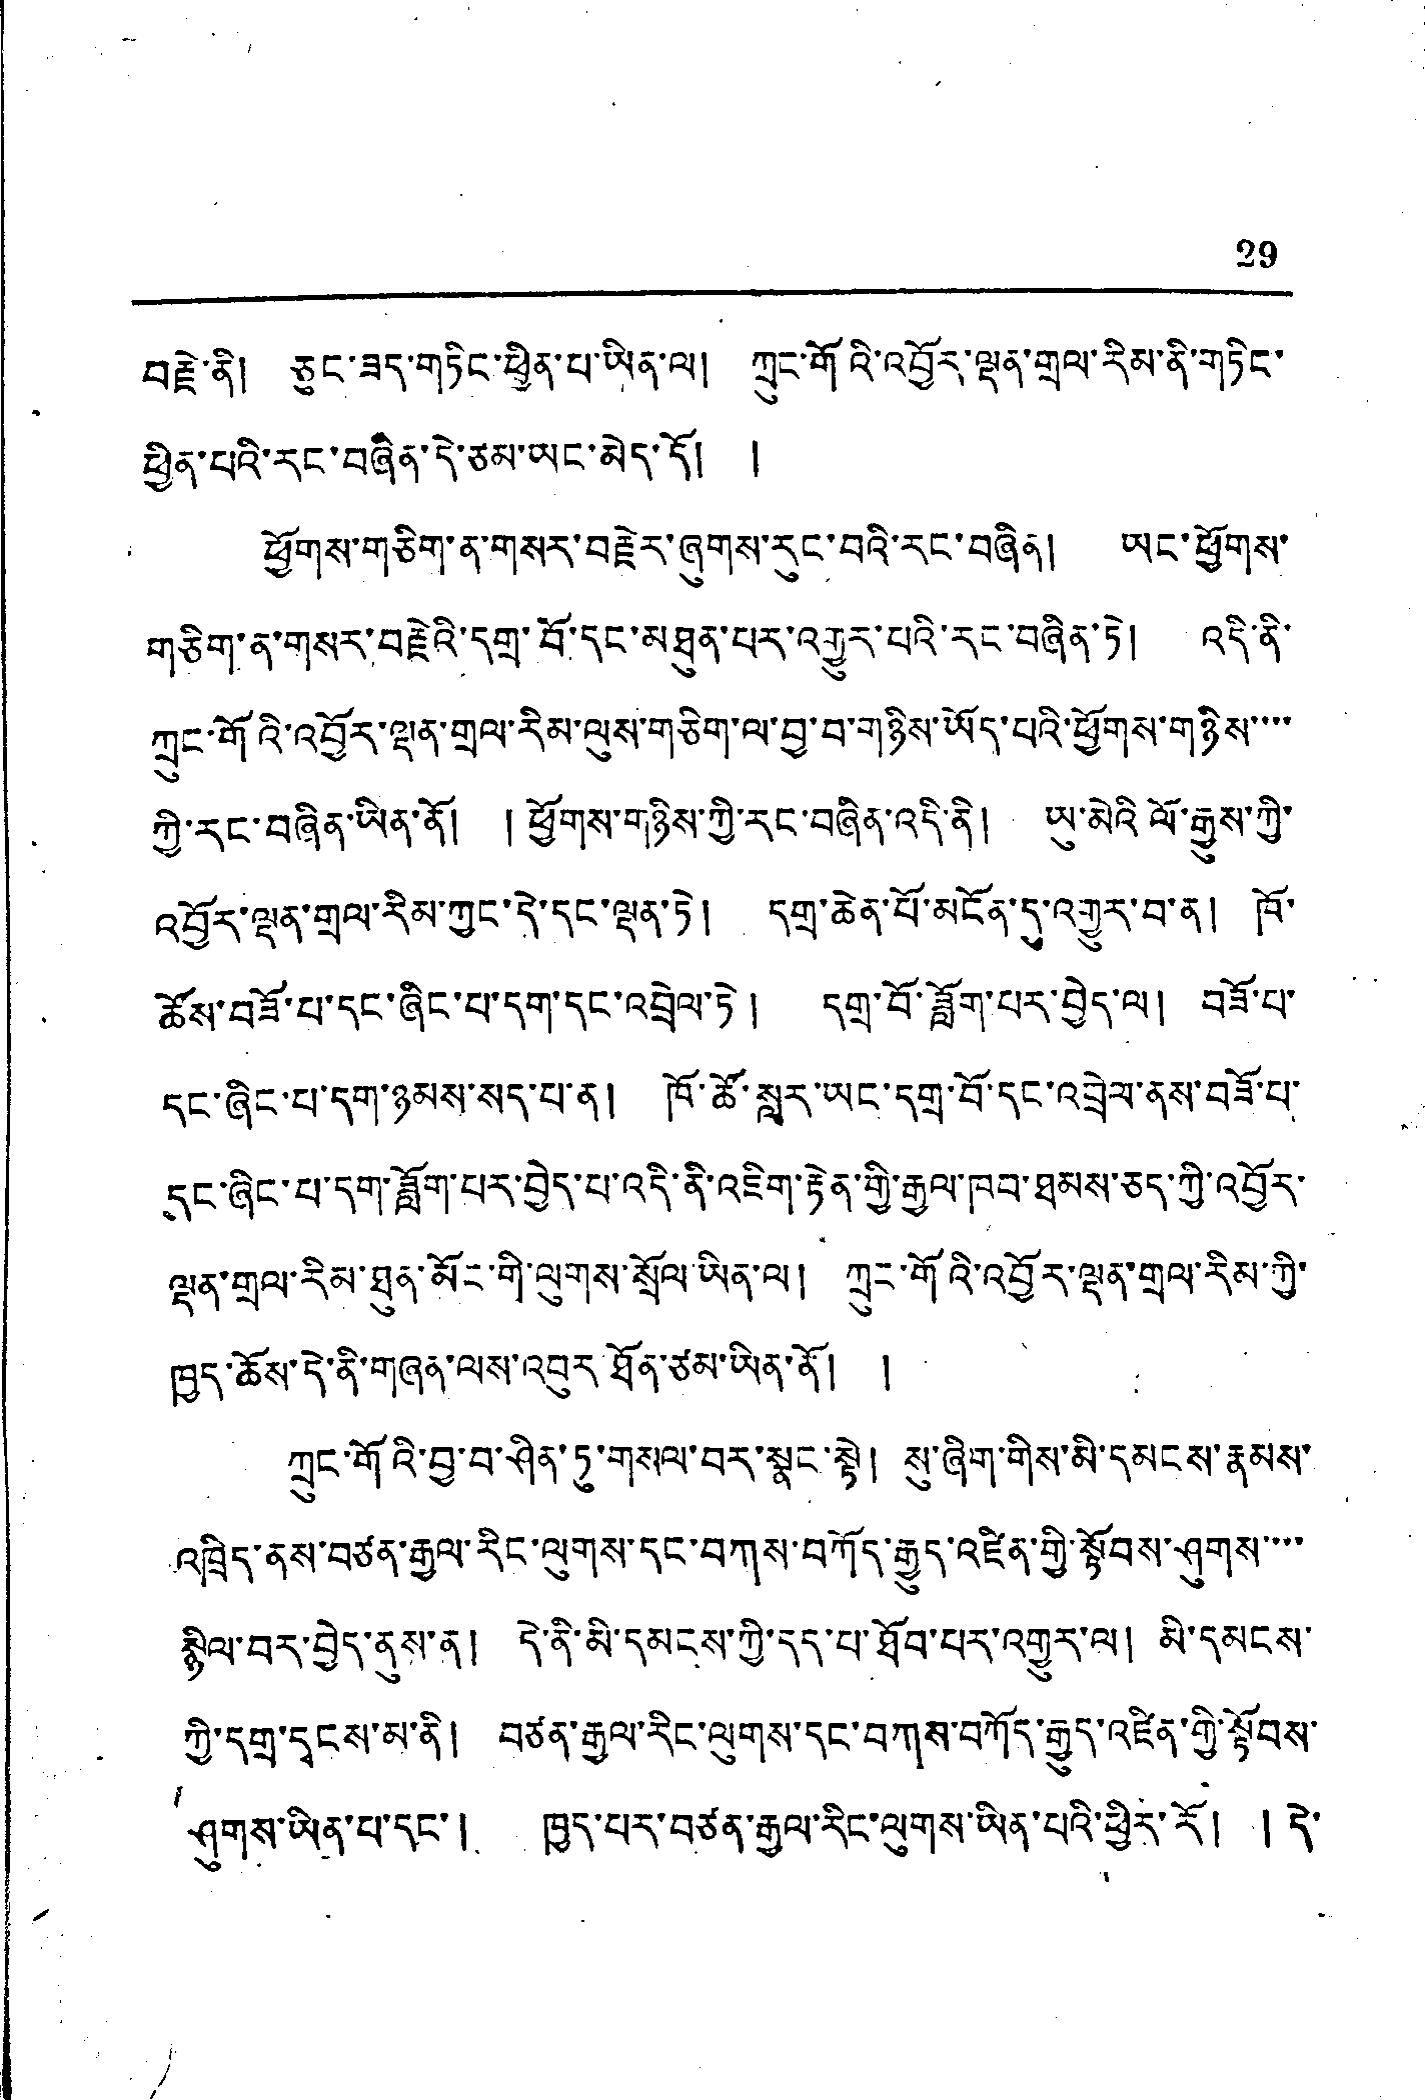29
བརྗེ་ནི། ཅུང་ཟད་གཏིང་ཕྱིན་པ་ཡིན་ལ། ཀྲུང་གོའི་འབྱོར་ལྡན་གྲལ་རིམ་ནི་གཏིང་
ཕྱིན་པའི་རང་བཞིན་དེ་ཙམ་ཡང་མེད་དོ། །
ཕྱོགས་གཅིག་ན་གསར་བརྗེར་ཞུགས་རུང་བའི་རང་བཞིན། ཡང་ཕྱོགས་
གཅིག་ན་གསར་བརྗེའི་དགྲ་བོ་དང་མཐུན་པར་འགྱུར་པའི་རང་བཞིན་ཏེ། འདི་ནི་
ཀྲུང་གོའི་འབྱོར་ལྡན་གྲལ་རིམ་ལུས་གཅིག་ལ་བྱ་བ་གཉིས་ཡོད་པའི་ཕྱོགས་གཉིས་་་་
ཀྱི་རང་བཞིན་ཡིན་ནོ། །ཕྱོགས་གཉིས་ཀྱི་རང་བཞིན་འདི་ནི། ཡ་མེའི་ལོ་རྒྱུས་ཀྱི་
འབྱོར་ལྡན་གྲལ་རིམ་ཀྱང་དེ་དང་ལྡན་ཏེ། དགྲ་ཆེན་པོ་མངོན་དུ་འགྱུར་བ་ན། ཁོ་
ཚོས་བཟོ་པ་དང་ཞིང་པ་དག་དང་འབྲེལ་ཏེ། དགྲ་བོ་ཟློག་པར་བྱེད་ལ། བཟོ་པ་
དང་ཞིང་པ་དག་ཉམས་སད་པ་ན། ཁོ་ཚོ་སླར་ཡང་དགྲ་བོ་དང་འབྲེལ་ནས་བཟོ་པ་
དང་ཞིང་པ་དག་ཟློག་པར་བྱེད་པ་འདི་ནི་འཇིག་རྟེན་གྱི་རྒྱལ་ཁབ་ཐམས་ཅད་ཀྱི་འབྱོར་
ལྡན་གྲལ་རིམ་ཐུན་མོང་གི་ལུགས་སྲོལ་ཡིན་ལ། ཀྲུང་གོའི་འབྱོར་ལྡན་གྲལ་རིམ་གྱི་
ཁྱད་ཆོས་དེ་ནི་གཞན་ལས་འབུར་ཐོན་ཙམ་ཡིན་ནོ། །
ཀྲུང་གོའི་བྱ་བ་ཤིན་ཏུ་གསལ་བར་སྣང་སྟེ། སུ་ཞིག་གིས་མི་དམངས་རྣམས་
འཁྲིད་ནས་བཙན་རྒྱལ་རིང་ལུགས་དང་བཀས་བཀོད་རྒྱུད་འཛིན་གྱི་སྟོབས་ཤུགས་་་་
སྙིལ་བར་བྱེད་ནས་ན། དེ་ནི་མི་དམངས་ཀྱི་དད་པ་ཐོབ་པར་འགྱུར་ལ། མི་དམངས་
ཀྱི་དགྲ་དྭངས་མ་ནི། བཙན་རྒྱལ་རིང་ལུགས་དང་བཀས་བཀོད་རྒྱུད་འཛིན་གྱི་སྟོབས་
ཤུགས་ཡིན་པ་དང་། ཁྱད་པར་བཙན་རྒྱལ་རིང་ལུགས་ཡིན་པའི་ཕྱིར་རོ། ། དེ་
